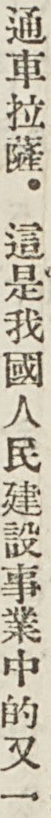通車拉薩。這是我國人民建設事業中的又一
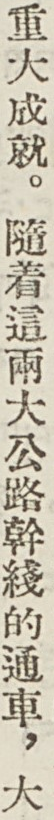重大成就。隨着這兩大公路幹綫的通車，大
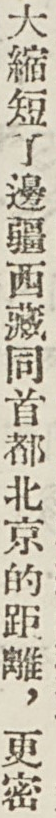大縮短了邊疆西藏同首都北京的距離，更密
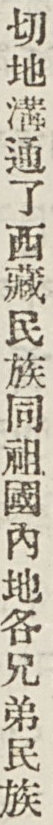切地溝通了西藏民族同祖國內地各兄弟民族
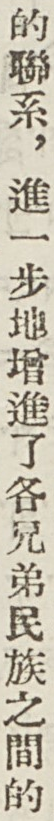的聯系，進一步地增進了各兄弟民族之間的
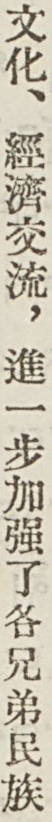文化、經濟交流，進一步加強了各兄弟民族
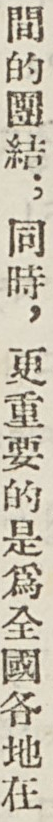間的團結；同時，更重要的是爲全國各地在
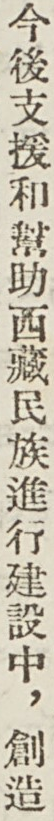今後支援和幫助西藏民族進行建設中，創造
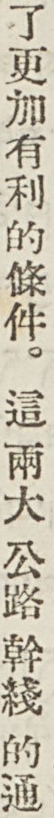了更加有利的條件。這兩大公路幹綫的通
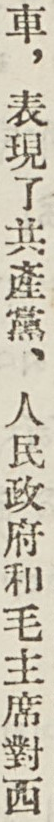車，表現了共產黨、人民政府和毛主席對西
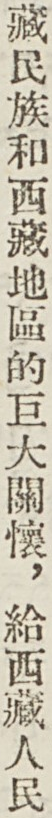藏民族和西藏地區的巨大關懷，給西藏人民
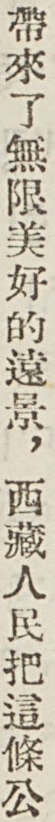帶來了無限美好的遠景，西藏人民把這條公
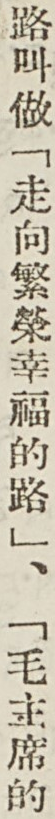路叫做「走向繁榮幸福的路」、「毛主席的
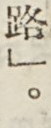路」。
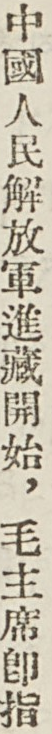中國人民解放軍進藏開始，毛主席卽指
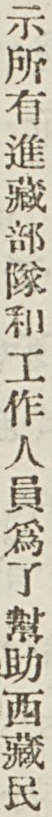示所有進藏部隊和工作人員爲了幫助西藏民
